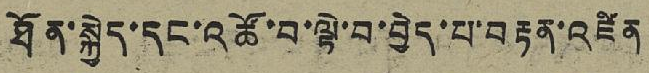ཐོན་སྐྱེད་དང་འཚོ་བ་ལྟེ་བ་བྱེད་པ་བརྟན་འཛིན
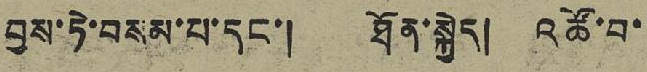བྱས་ཏེ་བསམ་པ་དང་། ཐོན་སྐྱེད། འཚོ་བ་
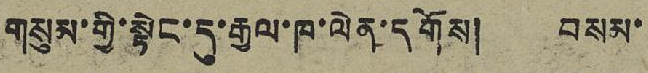གསུམ་གྱི་སྟེང་དུ་རྒྱལ་ཁ་ལེན་དགོས། བསམ་
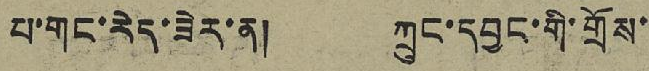པ་གང་རེད་ཟེར་ན། ཀྲུང་དབྱང་གི་གྲོས་
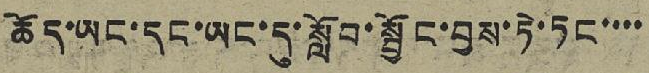ཆོད་ཡང་དང་ཡང་དུ་སློབ་སྦྱོང་བྱས་ཏེ་ཏང་་་་
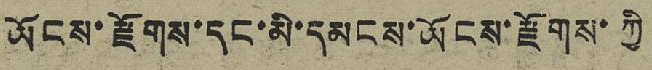ཡོངས་རྫོགས་དང་མི་དམངས་ཡོངས་རྫོགས་ཀྱི
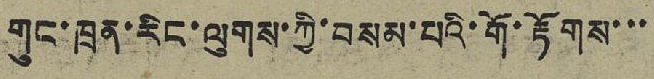གུང་ཁྲན་རིང་ལུགས་ཀྱི་བསམ་པའི་གོ་རྟོགས་་་
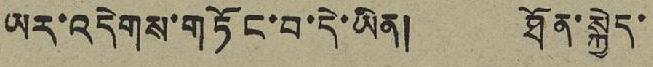ཡར་འདེགས་གཏོང་བ་དེ་ཡིན། ཐོན་སྐྱེད་
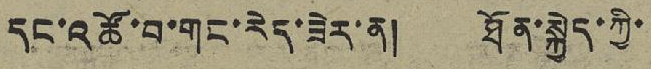དང་འཚོ་བ་གང་རེད་ཟེར་ན། ཐོན་སྐྱེད་ཀྱི་
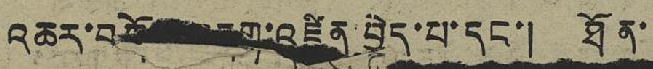འཆར་བཀོད་བདག་འཛིན་བྱེད་པ་དང་། ཐོན་
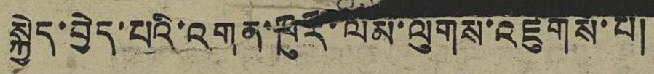སྐྱེད་བྱེད་པའི་འགན་ཁུར་ལམ་ལུགས་འཛུགས་པ།
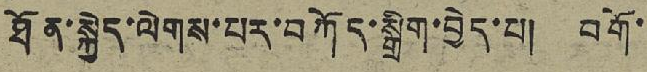ཐོན་སྐྱེད་ལེགས་པར་བཀོད་སྒྲིག་བྱེད་པ། བགོ་
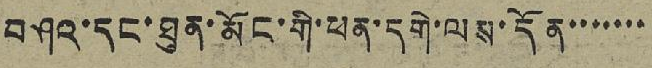བཤའ་དང་ཐུན་མོང་གི་ཕན་དགེ་ལས་དོན་་་་་་་
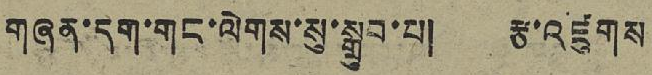གཞན་དག་གང་ལེགས་སུ་སྒྲུབ་པ། རྩ་འཛུགས
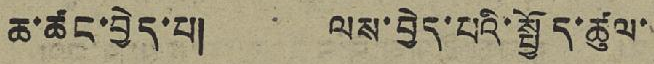ཆ་ཚང་བྱེད་པ། ལས་བྱེད་པའི་སྤྱོད་ཚུལ་
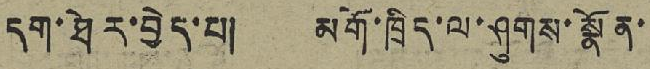དག་ཐེར་བྱེད་པ། མགོ་ཁྲིད་ལ་ཤུགས་སྣོན་
